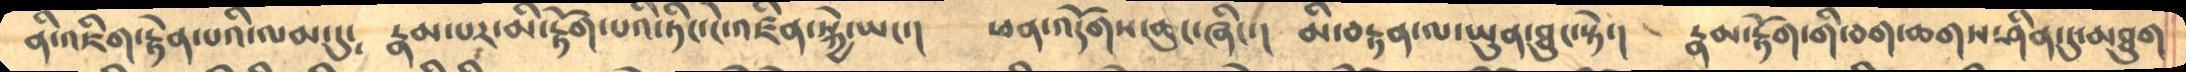ནི་འཇིག་རྟེན་པའི་ལམ་དུ༴    རྣམ་པར་མི་རྟོག་པའི་ཏིང་ངེ་འཛིན་སྐྱེ་ཡང་།      ཕན་འདོགས་ཆུང་ཞིང་།   མི་བརྟན་ལ་ཡུན་ཐུང་སྟེ་།   རྣམ་རྟོག་གི་བག་ཆགས་ཤིན་དུ་མཐུག
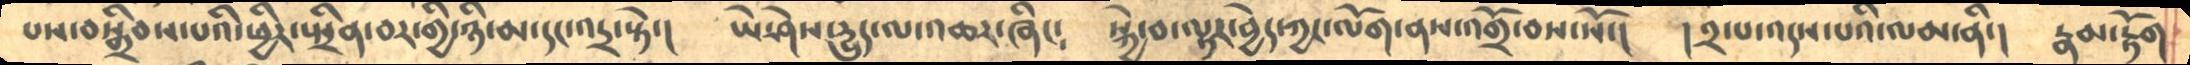པས་བསྒྲིབས་པའི་ཕྱིར་སྤྲིན་བར་གྱི་ཉི་མ་དང་འདྲ་སྟེ་།        ཡེ་ཤེས་དྱུད་ལ་འཆར་ཞིང༴     སྐྱེ་བ་ལྟར་བྱེད་ཀྱང་ལོག་ནས་འགྲོ་བས་སོ་།   །༢་པ་འདས་པའི་ལམ་ནི་།  རྣམ་རྟོག
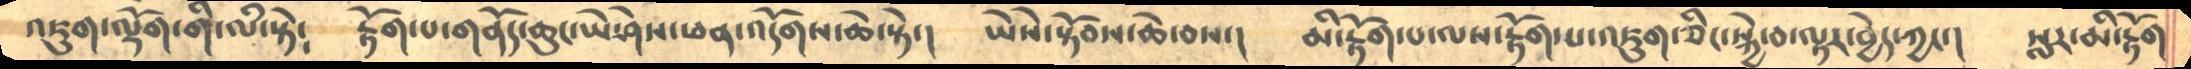འཇུག་ལྡོག་གི་ལྃ་སྟེ༴   རྟོག་པ་གནོད་ཆུང་ཡེ་ཤེས་ཕན་འདོགས་ཆེ་སྟེ་།   ཡེེས་སྟོབས་ཆེ་བས་།  མི་རྟོག་པ་ལས་རྟོག་པ་འཇུག་ཅིང་སྐྱེ་བ་ལྟར་བྱེད་ཀྱང་།   སླར་མི་རྟོག
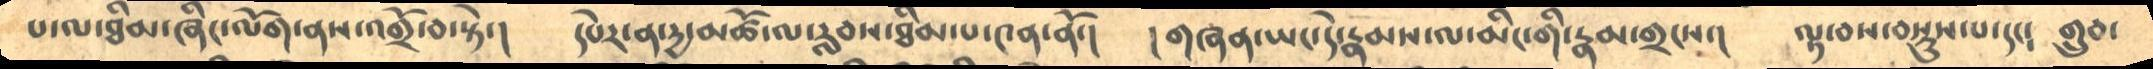པ་ལ་ཐིམ་ཞིང་ལོག་ནས་འགྲོ་བ་སྟེ་།  དཔེར་ན་རྒྱ་མཚོ་ལ་རླབས་ཐིམ་པ་༤ན་ནོ་།  །གཞན་ཡང་དེ་རྣམས་ལ་མིང་གི་རྣམ་གྲངས་།  ལྟ་བས་བསྡུས་པ་དང༴  གྲུབ་
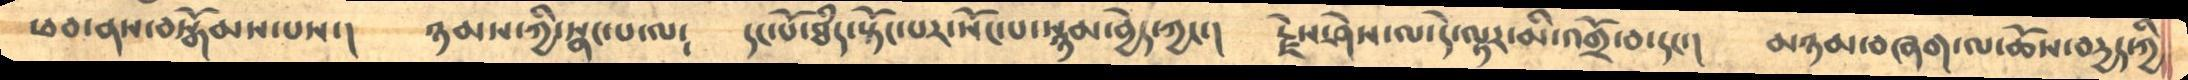ཕབ་ནས་བསྒོམས་པས་།  ཉམས་ཀྱི་སྣང་བ་ལ༴ དང་པོ་ཐྃད་སྟོང་པར་སོང་པ་སྙམ་བྱེད་ཀྱང་།  རྗེས་ཤེས་ལ་དེ་ལྟར་མི་འགྲོ་བ་དང་། མཉམ་བཞག་ལ་ཆོས་བདྱད་ཀྱི
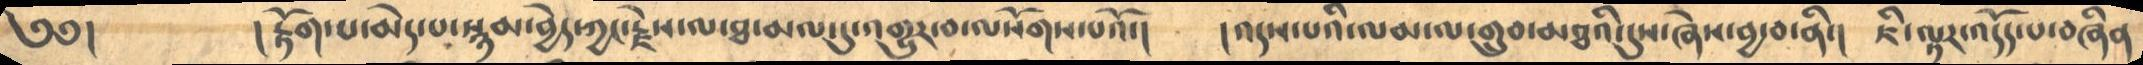༄༅།  །རྟོག་པ་མེད་པ་སྙམ་བྱེད་ཀྱང་རྗེས་ལ་ཐ་མལ་འགྱུར་བ་ལསོགས་པའོ་།  །འདས་པའི་ལམ་ལ་གྲུབ་མཐའི་དུས་ཞེས་བྱ་བ་ནི་། ཇི་ལྟར་འདོད་པ་བཞིན
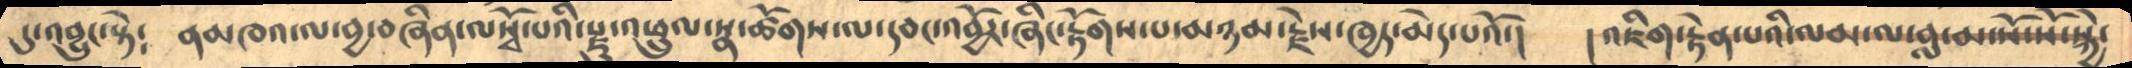དུ་འབྱུང་སྟེ༴ ནམཁའ་ལ་བྱ་བཞིན་ལསྭོ་པའི་སྫུ་འཕྲུལ་སྣ་ཚོགས་ལ་དབང་སྦྱོར་ཞིང་རྟོགས་པ་མཉམ་རྗེས་ཁྱད་མེད་པའོ་།  །འཇིག་རྟེན་པའི་ལམ་ལ་བླ་མ་སོ་སོ་སྐྱེ་
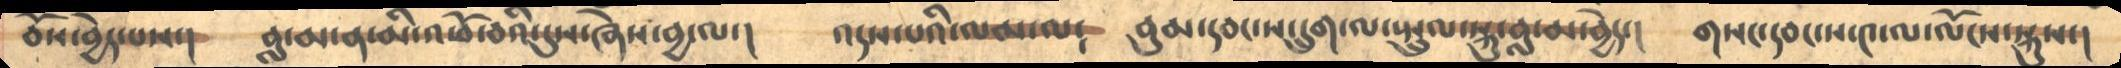བོས་བྱེད་པས་། བླ་མ་ན་མི་འཕོ་བའི་དུས་ཞེས་བྱ་ལ་།  འདས་པའི་ལམ་ལ༴ བུམ་དབང་ས་དྲུག་ལ་སྤྲུལ་སྐུ་བླ་མ་བྱེད་། གསང་དབང་ས་༤་ལ་ལོངས་སྐུས་།
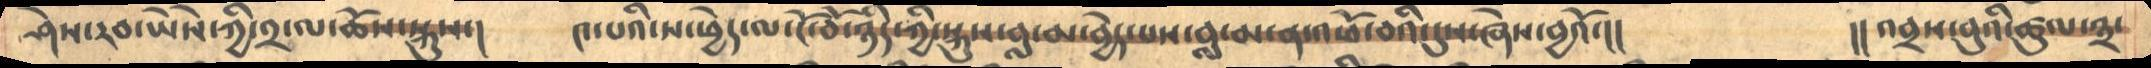ཤེས་རབ་ཡེེས་ཀྱི་༢་ལ་ཆོས་སྐུས་། ༤་པའི་ས་ཕྱེད་ལ་ངོ་བོ་ཉིད་ཀྱི་སྐུས་བླ་མ་བྱེད་པས་བླ་མ་ན་འཕོ་བའི་དུས་ཞེས་བྱའོ་།། །།འབྲས་བུའི་ཚུལ་༣
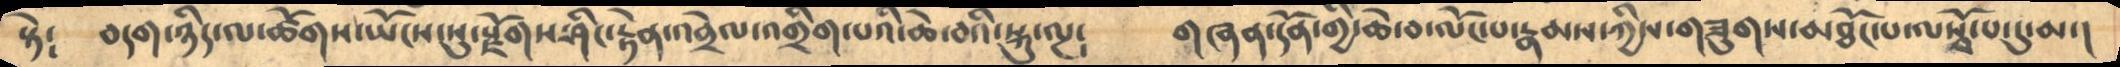སྟེ༴ བདག་ཉིད་ལ་ཚོགས་ཡོངས་སུ་སྫོགས་ཤིང་རྟེན་འབྲེལ་འགྲིག་པའི་ཆེ་བའི་སྐུ་ལྔ༴ གཞན་དོན་གྱི་ཆེ་བ་ལོང་པ་རྣམས་ཀྱིས་གཟུགས་མཐོང་པ་ལསྭོ་པ་དུ་མ་།
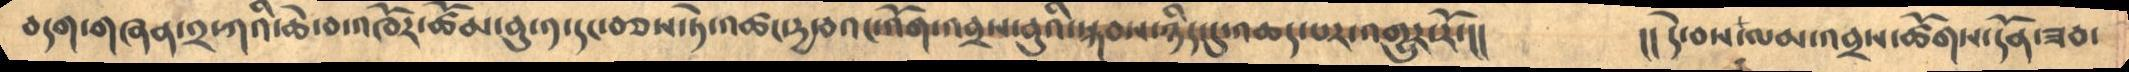བདག་གཞན་༢་ཀའི་ཆེ་བ་འཁོར་ཚོམ་བུ་༡་དང་བཅས་ཏེ་འཚང་དྱ་བའང་འོག་འབྲས་བུའི་རྐབས་ཉིད་དུ་འཆད་པར་འགྱུར་རོ་།།     །།དེ་བས་ལམ་འབྲས་ཚོགས་དོན་ཟབ་
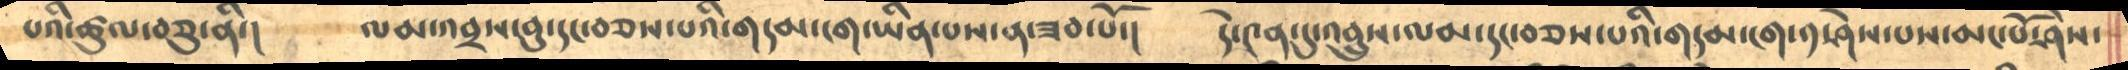པའི་ཚུལ་བཅུ་ནི་།  ལམ་འབྲས་བུ་དང་བཅས་པའི་གདམ་ངག་ཡིན་པས་ན་ཟབ་པོ་། དེ་༤ན་དུ་འབྲུས་ལམ་དང་བཅས་པའི་གདམ་ངག་༡་ཤེས་པས་མང་པོ་ཤེས་
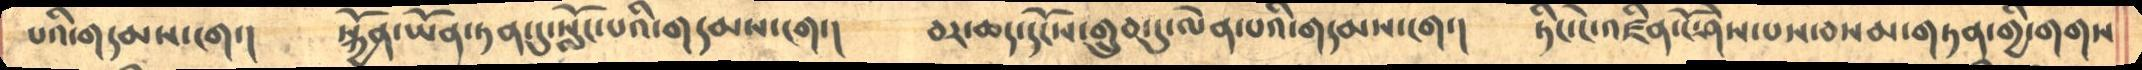པའི་གདམས་ངག་།  སྐྱོན་ཡོན་ཏན་དུ་སློང་པའི་གདམས་ངག་། བར་ཆད་དངོས་གྲུབ་དུ་ལེན་པའི་གདམས་ངག་།  ཏིང་ངེ་འཛིན་ངོ་ཤེས་པས་བསམ་གཏན་གྱི་གགས
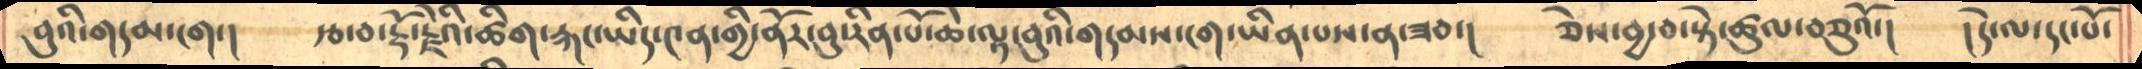བུའི་གདམ་ངག་། རྩ་བ་རྡོ་རྗེའི་ཙིག་རྐང་ཡིད་༤ན་གྱི་ནོར་བུ་རིན་པོ་ཆེ་ལྟ་བུའི་གདམས་ངག་ཡིན་པས་ན་ཟབ་། ཅེས་བྱ་བ་སྟེ་ཚུལ་བཅུའོ་། །དེ་ལ་དང་པོ་
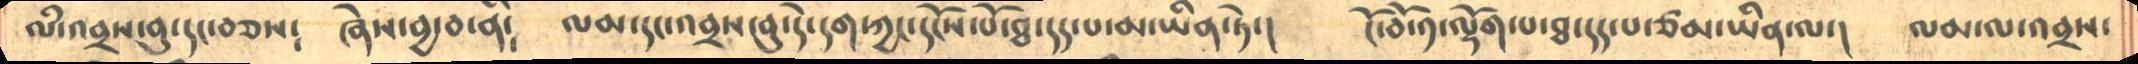ལཾ་འབྲས་བུ་དང་བཅས༴ ཞེས་བྱ་བ་ནི༴ ལམ་དང་འབྲས་བུ་དེ་དག་ཀྱང་དངོས་པོ་ཐ་དད་པ་མ་ཡིན་ཏེ་། ངོ་བོ་༡་ལྡོག་པ་ཐ་དད་པ་ཙམ་ཡིན་ལ་།  ལམ་ལ་འབྲས་
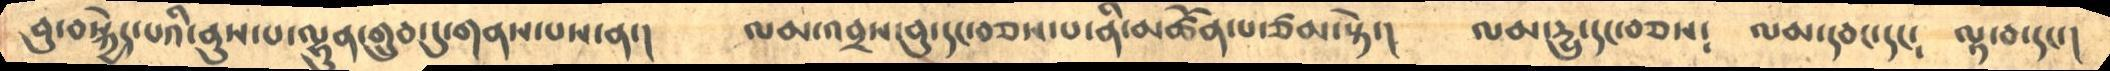བུ་བསྐྱེད་པའི་ནུས་པ་ལྷུན་གྲུབ་དུ་གནས་པས་ན་། ལམ་འབྲས་བུ་དང་བཅས་པ་ནི་མཚོན་པ་ཙམ་སྟེ་།  ལམ་དྱུ་དང་བཅས༴ ལམ་དབང་དང༴ ལྟ་བ་དང་།
